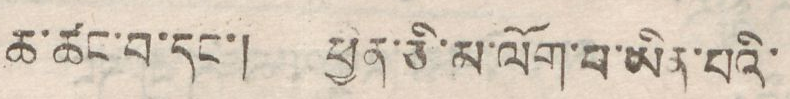ཆ་ཚང་བ་དང་། ཕྱིན་ཅི་མ་ལོག་པ་ཡིན་པའི་
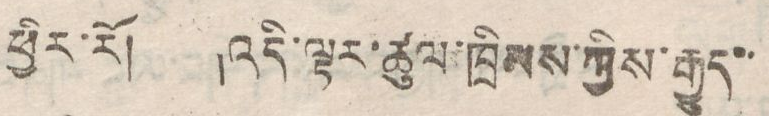ཕྱིར་རོ། །འདི་ལྟར་ཚུལ་ཁྲིམས་ཀྱིས་རྒྱུད་་
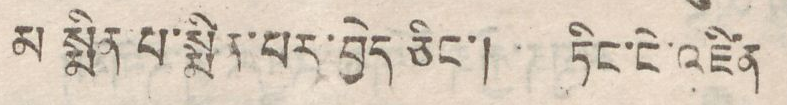མ སྨིན པ་སྨིན་པར་བྱེད ཅིང་། ཏིང་ངེ་འཛིན
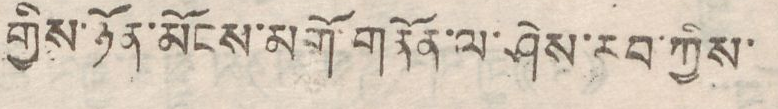གྱིས་ཉོན་མོངས་མགོ་གནོན་ལ་ཤེས་རབ་ཀྱིས་
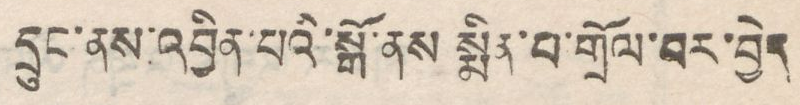དྲུང་ནས་འབྱིན་པའི་སྒོ་ནས སྨིན་པ་གྲོལ་བར་བྱེད
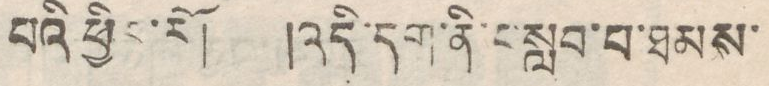པའི ཕྱིར་རོ། །འདི་དག་ནི་བསླབ་པ་ཐམས་
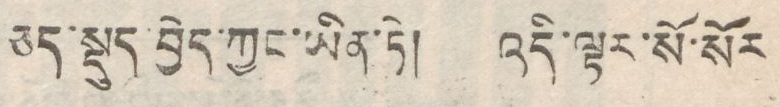ཅད་སྡུད་བྱེད་ཀྱང་ཡིན་ཏེ། འདི་ལྟར་སོ་སོར
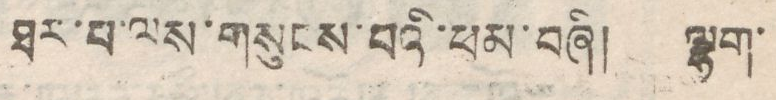ཐར་པ་ལས་གསུངས་བའི་ཕམ་བཞི། ལྷག་
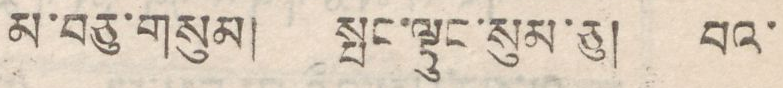མ་བཅུ་གསུམ། སྤང་ལྟུང་སུམ་ཅུ། པའ
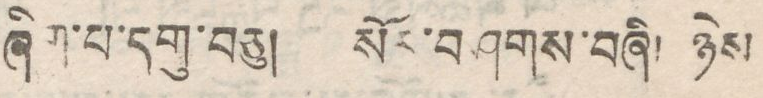ཞིག་པ་དགུ་བཅུ། སོར་བཤགས་བཞི། ཉེས
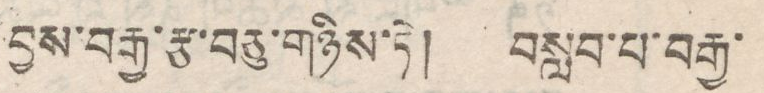བྱས་བརྒྱ་རྩ་བཅུ་གཉིས་ཏེ། བསླབ་པ་བརྒྱ་
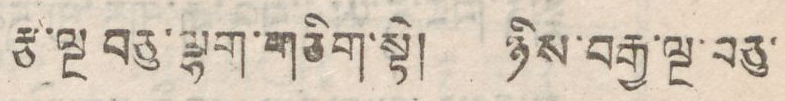རྩ་ལྔ བཅུ་ལྷག་གཅིག་སྟེ། ཉིས་བརྒྱ་ལྔ་བཅུ་
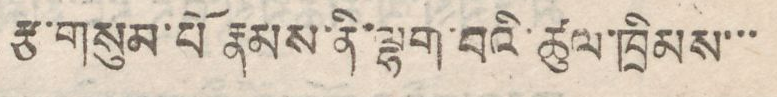རྩ་གསུམ་པོ རྣམས་ནི་ལྷག་པའི་ཚུལ་ཁྲིམས་་་
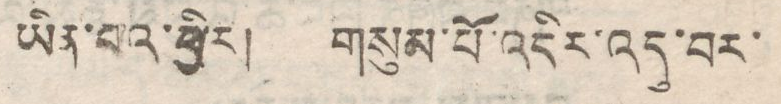ཡིན་པའ་ཕྱིར། གསུམ་པོ་འདིར་འདུ་བར་
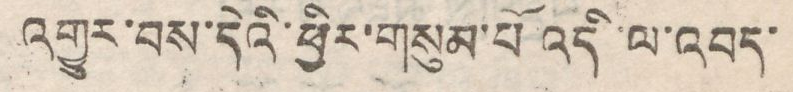འགྱུར་བས་དེའི་ཕྱིར་གསུམ་པོ འདི་ལ་འབད་
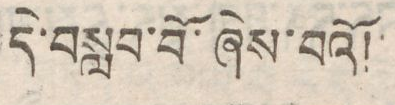དེ་བསླབ་བོ་ཞེས་པའོ།
